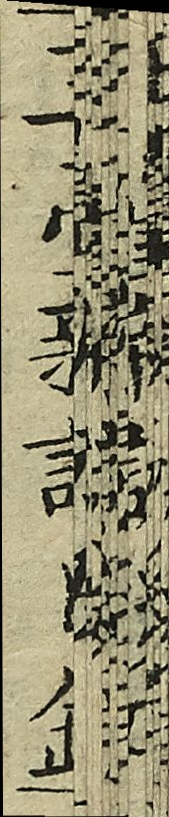玉臺新詠目錄
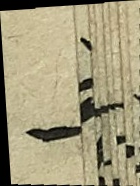一
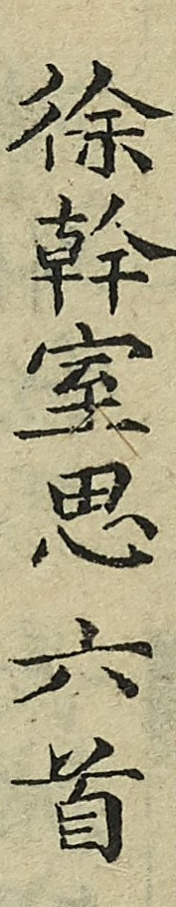徐幹室思六首
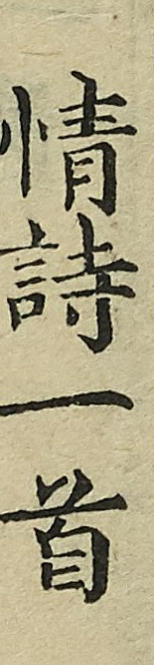情詩一首
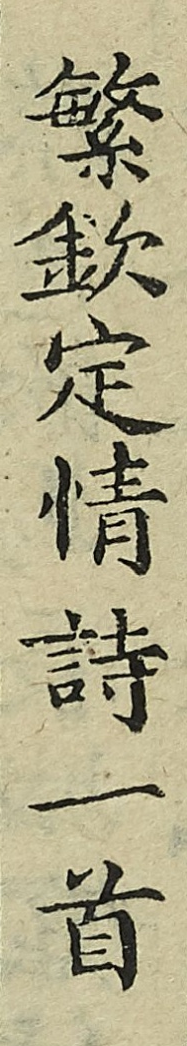繁欽定情詩一首
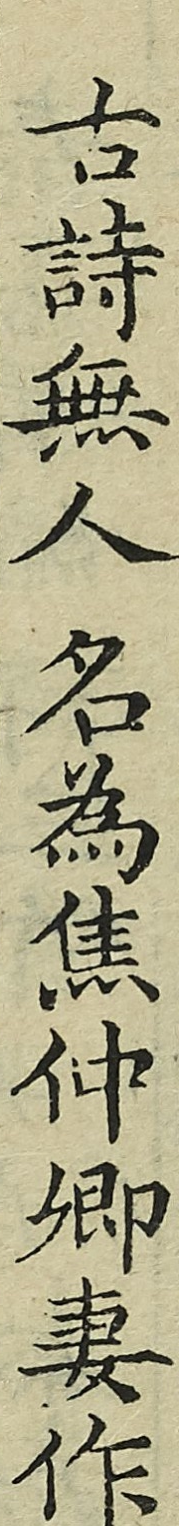古詩無人名為焦仲卿妻作
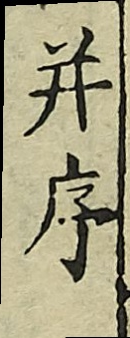並序
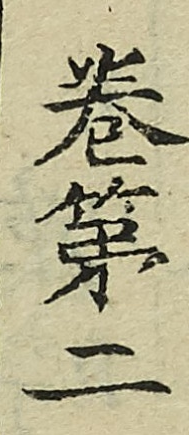卷第二
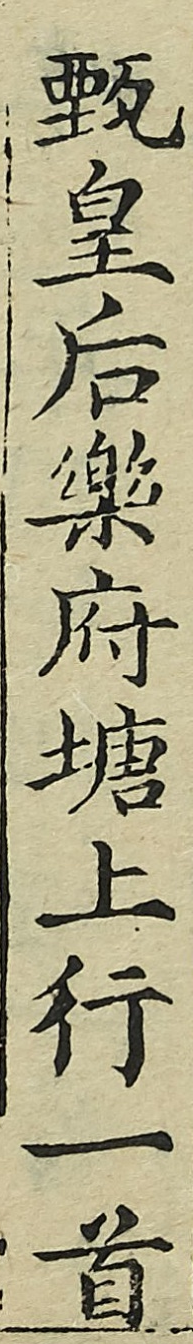甄皇后樂府塘上行一首
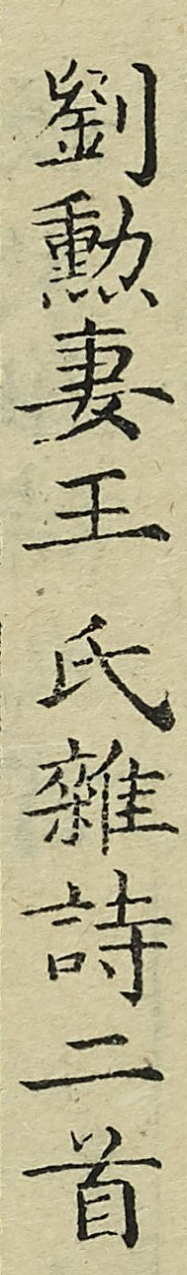劉勳妻王氏雜詩二首
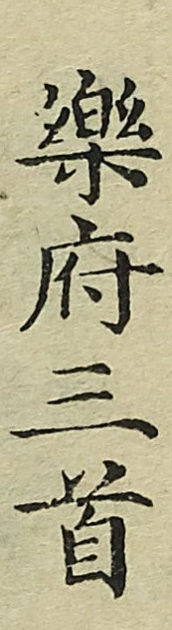樂府三首
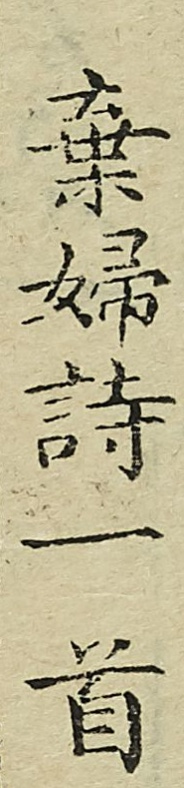棄婦詩一首
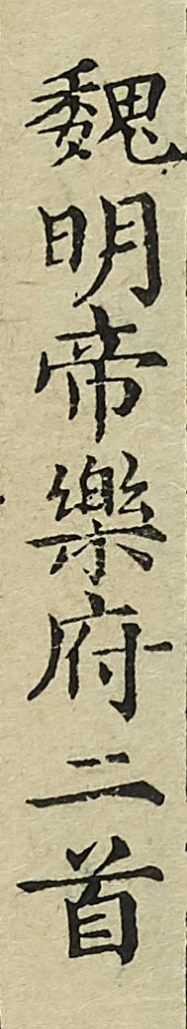魏明帝樂府二首
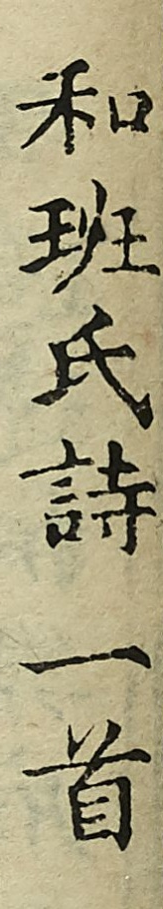和班氏詩一首
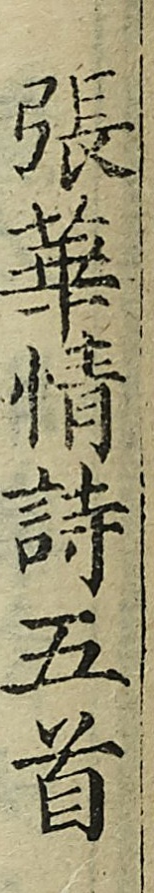張華情詩五首
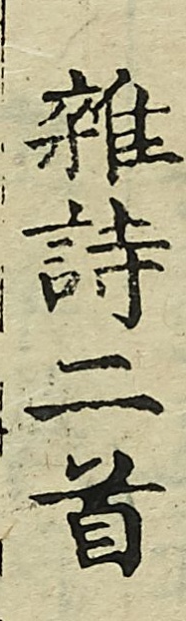雜詩二首
